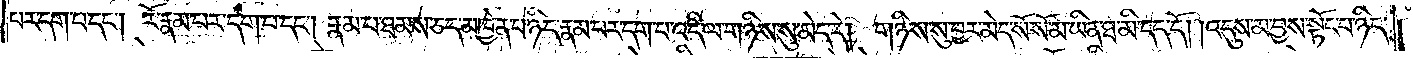པར་དག་པ་དང༌། རོ་རྣམ་པར་དག་པ་དང༌། རྣམ་པ་ཐམས་ཅད་མཁྱེན་པ་ཉིད་རྣམ་པར་དག་པ་འདི་ལ་གཉིས་སུ་མེད་དེ། གཉིས་སུ་བྱར་མེད་སོ་སོ་མ་ཡིན་ཐ་མི་དད་དོ། །འདུས་མ་བྱས་སྟོང་པ་ཉིད་
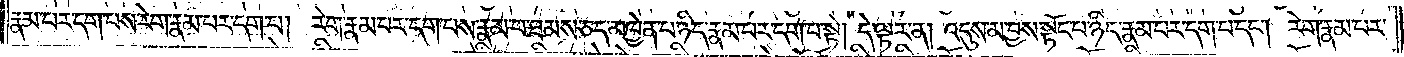རྣམ་པར་དག་པས་རེག་རྣམ་པར་དག་པ། རེག་རྣམ་པར་དག་པས་རྣམ་པར་ཐམས་ཅད་མཁྱེན་པ་ཉིད་རྣམ་པར་དག་པ་སྟེ། དེ་ལྟར་ན། འདུས་མ་བྱས་སྟོང་པ་ཉིད་རྣམ་པར་དག་པ་དང༌། རེག་རྣམ་པར་
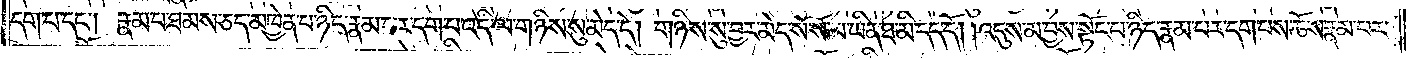དག་པ་དང༌། རྣམ་པ་ཐམས་ཅད་མཁྱེན་པ་ཉིད་རྣམ་པར་དག་པ་འདི་ལ་གཉིས་སུ་མེད་དེ། གཉིས་སུ་བྱར་མེད་སོ་སོ་མ་ཡིན་ཐ་མི་དད་དོ། །འདུས་མ་བྱས་སྟོང་པ་ཉིད་རྣམ་པར་དག་པས་ཆོས་རྣམ་པར་
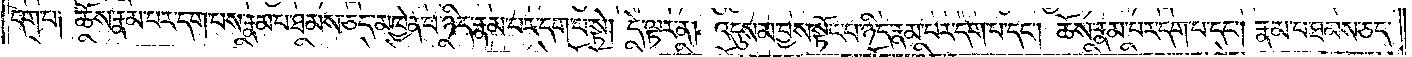དག་པ༑ ཆོས་རྣམ་པར་དག་པས་རྣམ་པ་ཐམས་ཅད་མཁྱེན་པ་ཉིད་རྣམ་པར་དག་པ་སྟེ། དེ་ལྟར་ན། འདུས་མ་བྱས་སྟོང་པ་ཉིད་རྣམ་པར་དག་པ་དང༌། ཆོས་རྣམ་པར་དག་པ་དང༌། རྣམ་པ་ཐམས་ཅད་
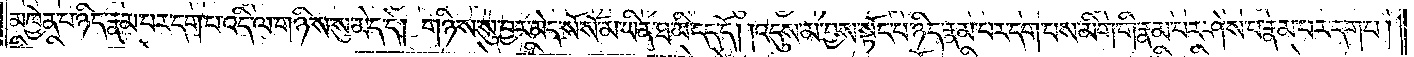མཁྱེན་པ་ཉིད་རྣམ་པར་དག་པ་འདི་ལ་གཉིས་སུ་མེད་དེ། གཉིས་སུ་བྱར་མེད་སོ་སོ་མ་ཡིན་ཐ་མི་དད་དོ། །འདུས་མ་བྱས་སྟོང་པ་ཉིད་རྣམ་པར་དག་པས་མིག་གི་རྣམ་པར་ཤེས་པ་རྣམ་པར་དག་པ།
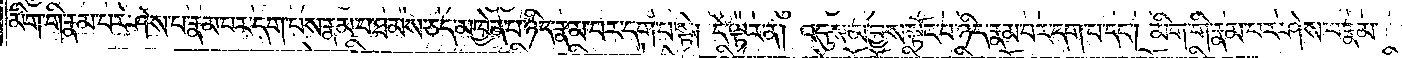མིག་གི་རྣམ་པར་ཤེས་པ་རྣམ་པར་དག་པས་རྣམ་པ་ཐམས་ཅད་མཁྱེན་པ་ཉིད་རྣམ་པར་དག་པ་སྟེ། དེ་ལྟར་ན། འདུས་མ་བྱས་སྟོང་པ་ཉིད་རྣམ་པར་དག་པ་དང༌། མིག་གི་རྣམ་པར་ཤེས་པ་རྣམ་
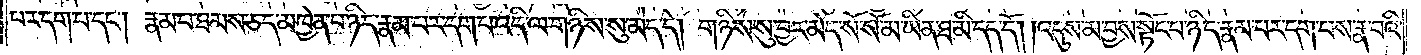པར་དག་པ་དང༌། རྣམ་པ་ཐམས་ཅད་མཁྱེན་པ་ཉིད་རྣམ་པར་དག་པ་འདི་ལ་གཉིས་སུ་མེད་དེ། གཉིས་སུ་བྱར་མེད་སོ་སོ་མ་ཡིན་ཐ་མི་དད་དོ། །འདུས་མ་བྱས་སྟོང་པ་ཉིད་རྣམ་པར་དག་པས་རྣ་བའི་
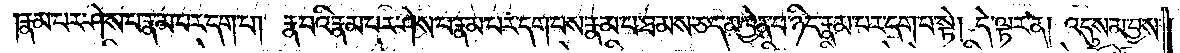རྣམ་པར་ཤེས་པ་རྣམ་པར་དག་པ། རྣ་བའི་རྣམ་པར་ཤེས་པ་རྣམ་པར་དག་པས་རྣམ་པ་ཐམས་ཅད་མཁྱེན་པ་ཉིད་རྣམ་པར་དག་པ་སྟེ། དེ་ལྟར་ན། འདུས་མ་བྱས་
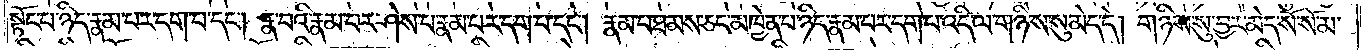སྟོང་པ་ཉིད་རྣམ་པར་དག་པ་དང༌། རྣ་བའི་རྣམ་པར་ཤེས་པ་རྣམ་པར་དག་པ་དང༌། རྣམ་པ་ཐམས་ཅད་མཁྱེན་པ་ཉིད་རྣམ་པར་དག་པ་འདི་ལ་གཉིས་སུ་མེད་དེ། གཉིས་སུ་བྱར་མེད་སོ་སོ་མ་
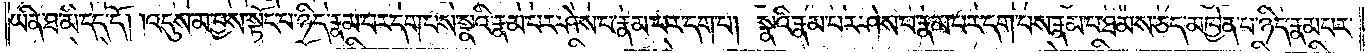ཡིན་ཐ་མི་དད་དོ། །འདུས་མ་བྱས་སྟོང་པ་ཉིད་རྣམ་པར་དག་པས་སྣའི་རྣམ་པར་ཤེས་པ་རྣམ་པར་དག་པ། སྣའི་རྣམ་པར་ཤེས་པ་རྣམ་པར་དག་པས་རྣམ་པ་ཐམས་ཅད་མཁྱེན་པ་ཉིད་རྣམ་པར་
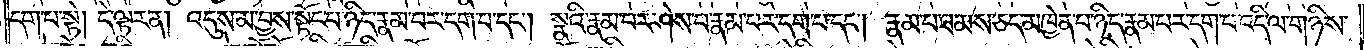དག་པ་སྟེ། དེ་ལྟར་ན། འདུས་མ་བྱས་སྟོང་པ་ཉིད་རྣམ་པར་དག་པ་དང༌། སྣའི་རྣམ་པར་ཤེས་པ་རྣམ་པར་དག་པ་དང༌། རྣམ་པ་ཐམས་ཅད་མཁྱེན་པ་ཉིད་རྣམ་པར་དག་པ་འདི་ལ་གཉིས་
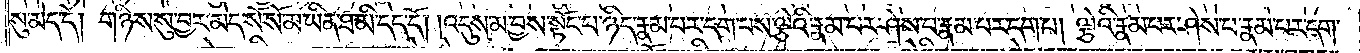སུ་མེད་དེ། གཉིས་སུ་བྱར་མེད་སོ་སོ་མ་ཡིན་ཐ་མི་དད་དོ། །འདུས་མ་བྱས་སྟོང་པ་ཉིད་རྣམ་པར་དག་པས་ལྕེའི་རྣམ་པར་ཤེས་པ་རྣམ་པར་དག་པ། ལྕེའི་རྣམ་པར་ཤེས་པ་རྣམ་པར་དག་
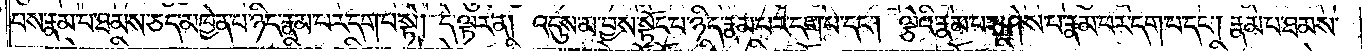པས་རྣམ་པ་ཐམས་ཅད་མཁྱེན་པ་ཉིད་རྣམ་པར་དག་པ་སྟེ། དེ་ལྟར་ན། འདུས་མ་བྱས་སྟོང་པ་ཉིད་རྣམ་པར་དག་པ་དང༌། ལྕེའི་རྣམ་པར་ཤེས་པ་རྣམ་པར་དག་པ་དང༌། རྣམ་པ་ཐམས་
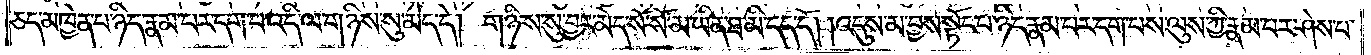ཅད་མཁྱེན་པ་ཉིད་རྣམ་པར་དག་པ་འདི་ལ་གཉིས་སུ་མེད་དེ། གཉིས་སུ་བྱར་མེད་སོ་སོ་མ་ཡིན་ཐ་མི་དད་དོ། །འདུས་མ་བྱས་སྟོང་པ་ཉིད་རྣམ་པར་དག་པས་ལུས་ཀྱི་རྣམ་པར་ཤེས་པ་
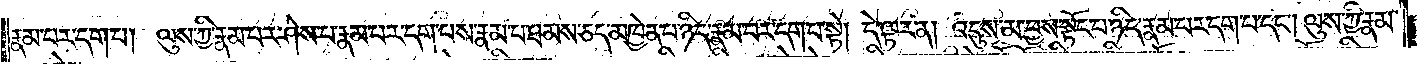རྣམ་པར་དག་པ། ལུས་ཀྱི་རྣམ་པར་ཤེས་པ་རྣམ་པར་དག་པས་རྣམ་པ་ཐམས་ཅད་མཁྱེན་པ་ཉིད་རྣམ་པར་དག་པ་སྟེ། དེ་ལྟར་ན། འདུས་མ་བྱས་སྟོང་པ་ཉིད་རྣམ་པར་དག་པ་དང༌། ལུས་ཀྱི་རྣམ་
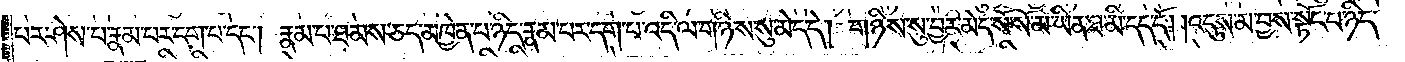པར་ཤེས་པ་རྣམ་པར་དག་པ་དང༌། རྣམ་པ་ཐམས་ཅད་མཁྱེན་པ་ཉིད་རྣམ་པར་དག་པ་འདི་ལ་གཉིས་སུ་མེད་དེ། གཉིས་སུ་བྱར་མེད་སོ་སོ་མ་ཡིན་ཐ་མི་དད་དོ། །འདུས་མ་བྱས་སྟོང་པ་ཉིད་
